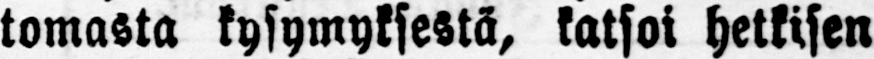tomasta kysymyksestä, katsoi hetkisen
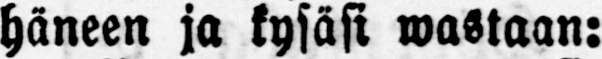häneen ja kysäsi wastaan:
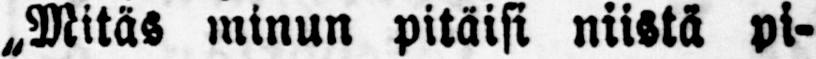Mitäs minun pitäisi niistä pi-
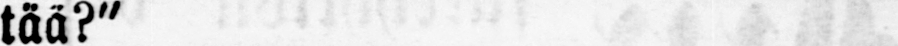tää?"
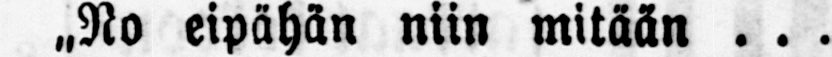„No eipähän niin mitään . . .
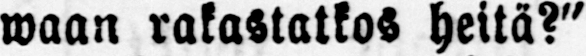waan rakastatko- heitä?"
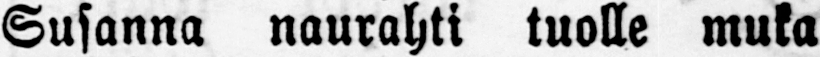Susanna naurahti tuolle muka
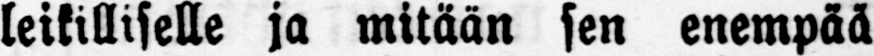leikilliselle ja mitään sen enempää
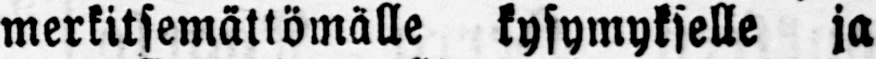merkitsemättömälle kysymykselle ja
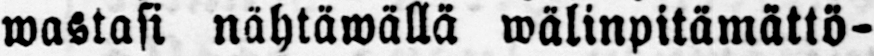wastasi nähtäwällä wälinpitämättö-
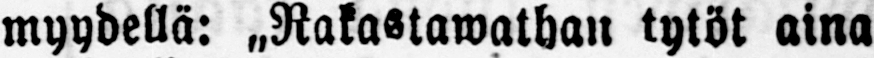myydellä: Rakastawathan tytöt aina
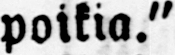poikia."
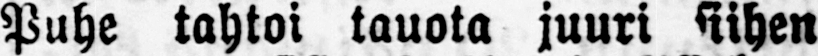Puhe tahtoi tauota juuri siihen
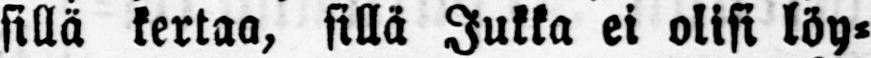sillä kertaa, sillä Jukka ei olisi löy-
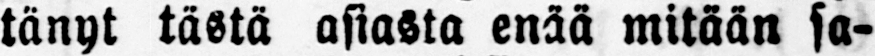tänyt tästä asiasta enää mitään sa-
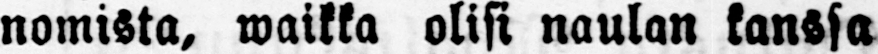nomista, waikka olisi naulan kanssa
